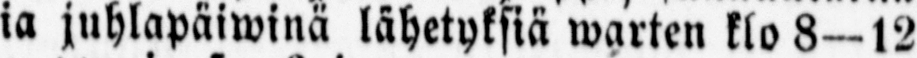ja juhlapäiwinä lähetyksiä warten klo 8—l2
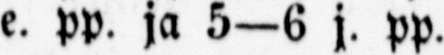e. pp. ja 5—6 j. pp.
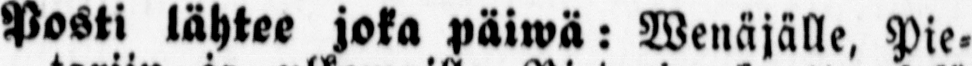Posti lähtee joka päiwä: Wenäjälle, Pie-
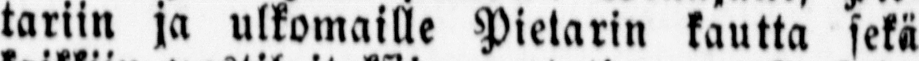tariin ja ulkomaille Pietarin kautta sekä
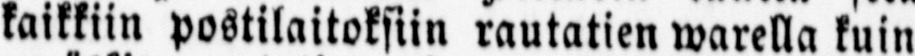kaikkiin postilaitoksiin rautatien warella kuin
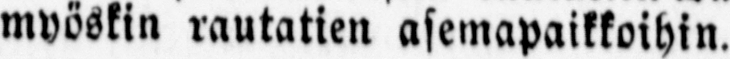myöskin rautatien asemapaikkoihin.
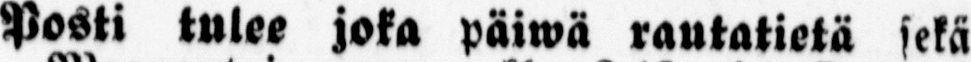Posti tulee joka päiwä rautatietä sekä
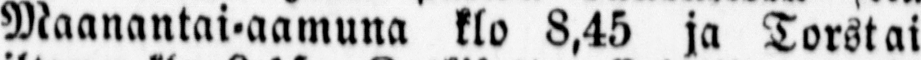Maanantai-aamuna klo 8,45 ja Torstai
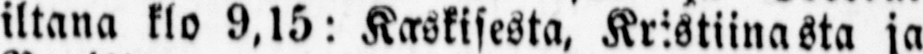iltana klo 9,15: Kaskisesta. Kristiinasta ja
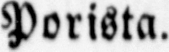Porista.
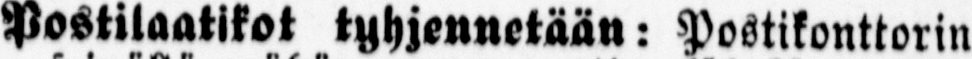Postilaatikot tyhjennetään: Postikonttorin
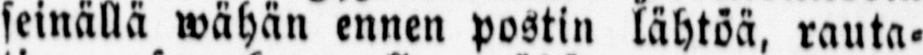seinällä wähän ennen postin lähtöä, rauta-
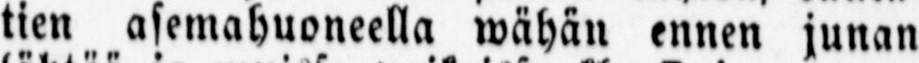tien asemahuoneella wähän ennen junan
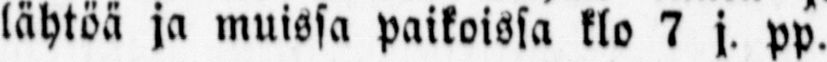lähtöä ja muissa paikoissa klo 7 j. pp.
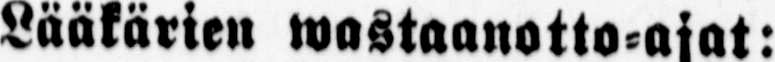Lääkärien wastaanotto-ajat:
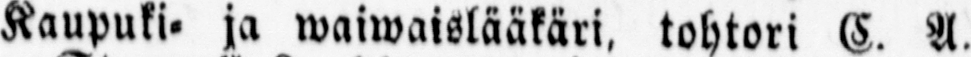Kaupuki- ja waiwaislääkäri, tohtori C. A,
